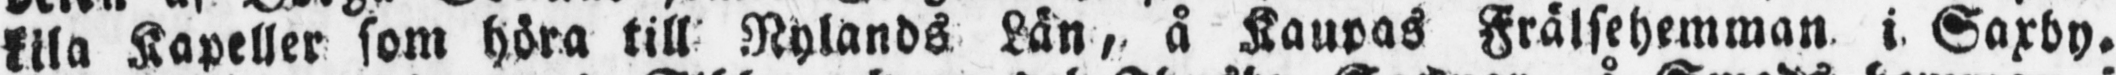kila Kapeller som höra till Nylands Län, å Kaupas Frälsehemman i Saxby.
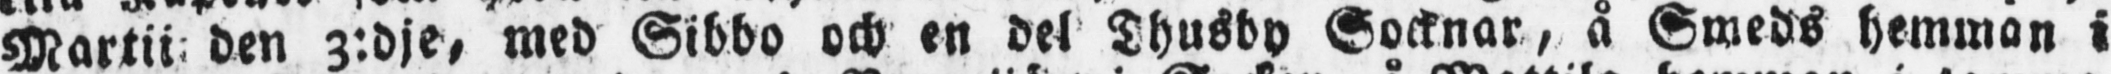Martii den 3:dje, med Sibbo och en del Thusby Socknar, å Smeds hemman i
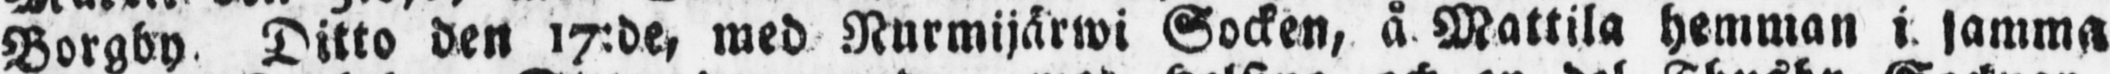Borgby Ditto den 17:de, med Nurmijärwi Socken, å Mattila hemman i samma
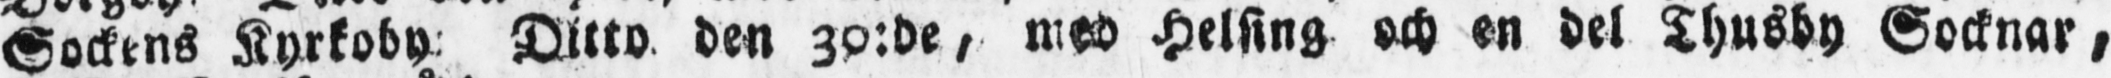Sockens Kyrkoby Ditto den 30:de, med Helsing och en del Thusby Socknar,
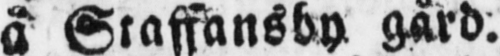å Staffansby gård.
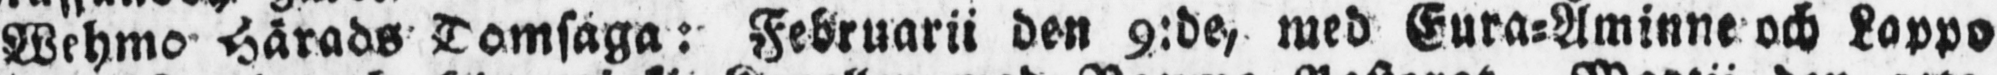Wehmo härads Domsaga: Februarii den 9:de, med Eura-Åminne och Lappo
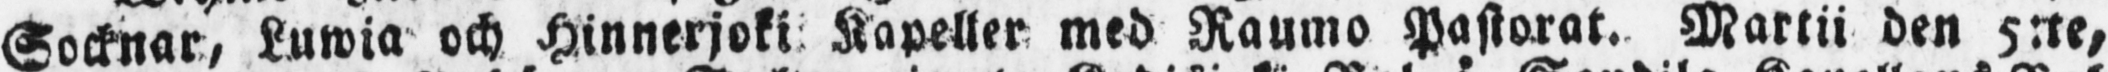Socknar, Luwia och Hinnerjoki Kapeller med Raumo Pastorat. Martii den 5:te,
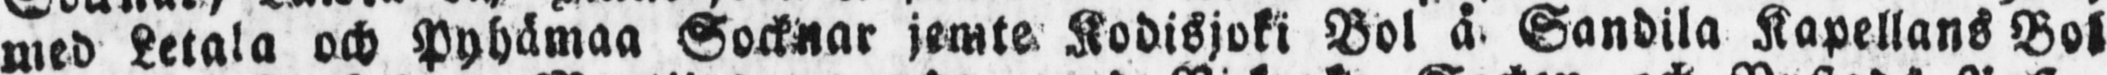med Letala och Pyhämaa Socknar jemte Kodisjoki Bol å Sandila Kapellans Bol
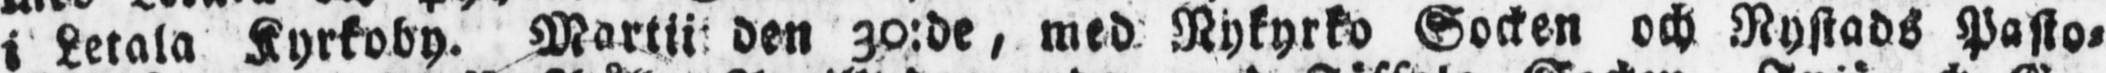i Letala Kyrkoby. Martii den 30:de, med Nykyrko Socken och Nystads Pasto-
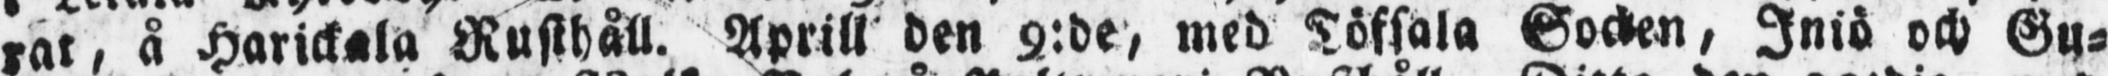rat, å Harickala Rusthåll. Aprill den 9:de, med Töfsala Socken, Iniö och Gu-
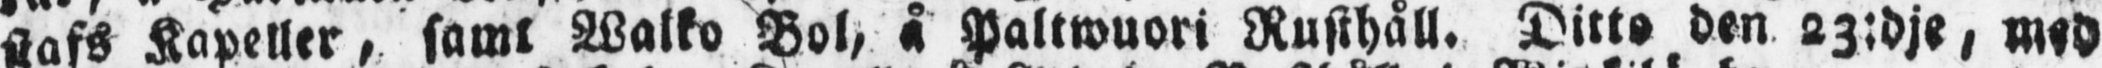stafs Kapeller, samt Walko Bol, å Paltwuori Rusthåll. Ditto den 23:dje, med
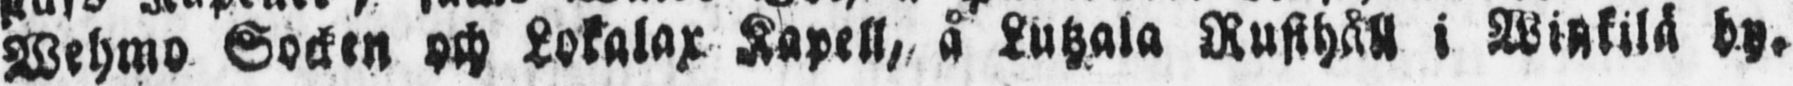Wehmo Socken och Lokalax Kapell, å Lutzala Rusthåll i Winkilä by.
